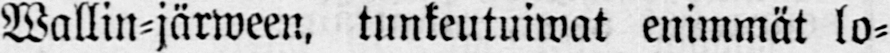Wallin-järween, tunkeutuiwat enimmät lo-
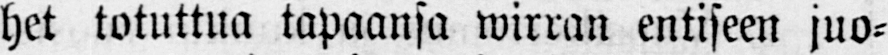het totuttua tapaansa wirran entiseen juo-
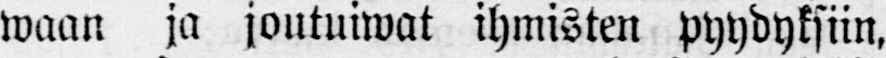waan ja joutuiwat ihmisten pyydyksiin,
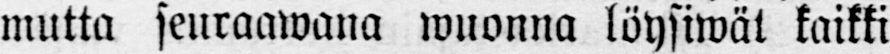mutta seuraawana wuonna löysiwät kaikki
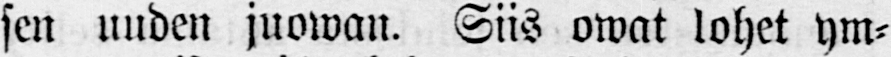sen uuden juowan. Siis owat lohet ym-
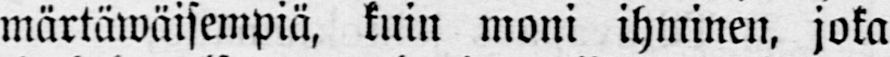märtäwäisempiä, kuin moni ihminen, joka
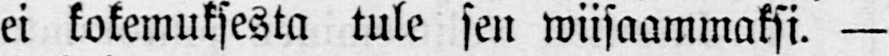ei kokemuksesta tule sen wiisaammaksi. —
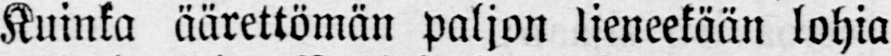Kuinka äärettömän paljon lieneekään lohia
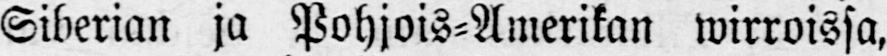Siperian ja Pohjois-Amerikan wirroissa,
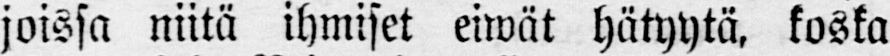joissa niitä ihmiset eiwät hätyytä, koska
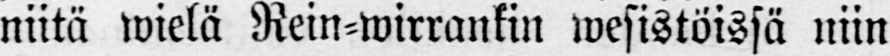niitä wielä Rein-wirrankin wesistöissä niin
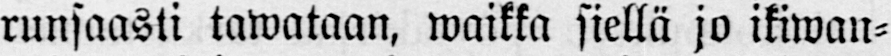runsaasti tawataan, waikka siellä jo ikiwan-
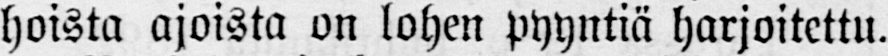hoista ajoista on lohen pyyntiä harjoitettu.
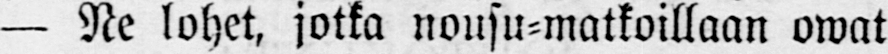— Ne lohet, jotka nousu-matkoillaan owat
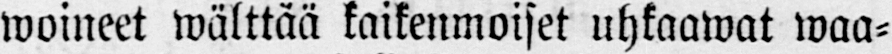woineet wälttää kaikenmoiset uhkaawat waa-
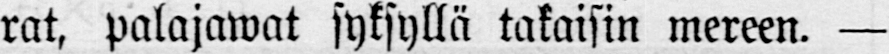rat, palajawat syksyllä takaisin mereen. —
